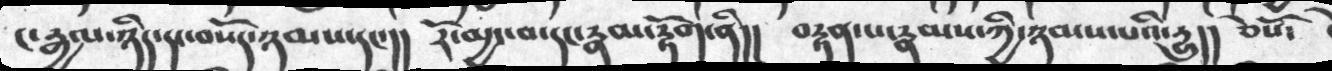ང་རྒྱལ་ཉིད་དང་བསོད་ཉམས་དང་།།    རོ་མྱང་བ་དང་རྣམ་རྟོག་ནི།།   བརྟན་པ་རྣམས་ཀྱི་ཉམས་པའི་རྱུ།།  ཅེསོ་
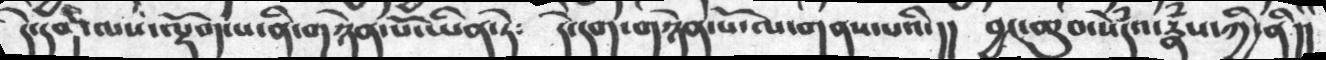དེ་དག་ལས་ལྡོག་པ་ནི་གཉེན་པོ་ཡིན་ཏེ༴      དེ་དག་གཉེན་པོ་ལ་གནས་པའི་།།   བྱང་ཆུབ་སེདྃའ་རྣཾས་ཀྱི་ནི།།
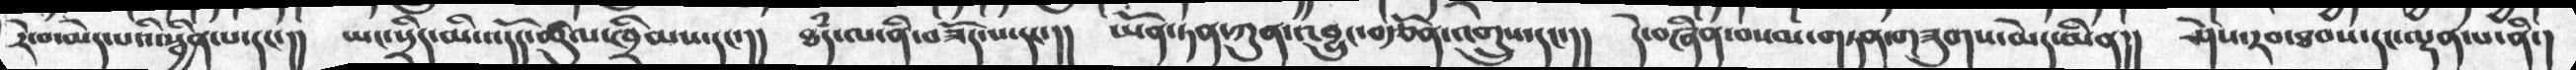རེ་བ་མེད་པའི་སྦྱིན་པ་དང་།། ཡང་སྲིད་མི་འདོད་ཚུལ་ཁྲིམས་དང་།། ཐཾད་ལ་ནི་བཟོད་པ་དང་།། ཡོན་ཏན་ཀུན་འབྱུང་བརྩོན་འགྲུས་དང་།། དེ་བཞིན་བསམ་གཏན་གཟུགས་མེད་མིན།། ཤེས་རབ་ཐབས་དང་ལྡན་པ་ནི་།
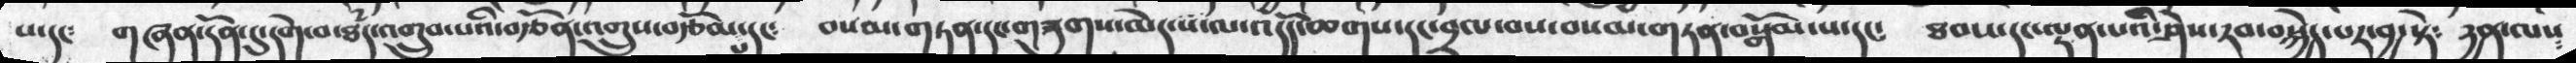པ་དང༴  གཞན་དོན་དུ་དགེ་བ་ཐཾད་འགྲུབ་པའི་བརྩོན་འགྲུས་བརྩོམ་པ་དང     བསམ་གཏན་དང་གཟུགས་མེད་ས་ལ་འདོད་ཆགས་དང་བྲལ་བས་བསམ་གཏན་བསྒོམ་པ་དང༴   ཐབས་དང་ལྡན་པའི་ཤེས་རབ་བསྐྱེད་པར་བྱ་སྟེ༴  རྱན་ལས༴
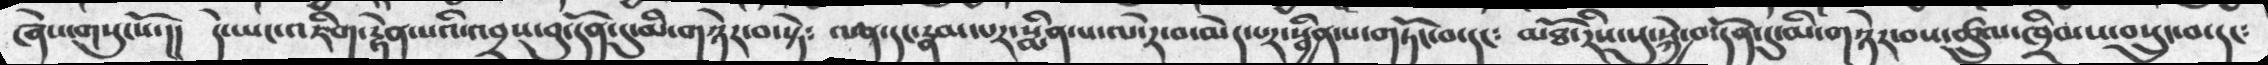ཞེས་གསུངསོ་།། དེ་ཡང་འཇིག་རྟེན་པའི་འབྲས་་བུ་དོན་དུ་མི་གཉེར་བ་སྟེ༴ ལན་དང་རྣམ་པར་སྨིན་པ་ལ་རེ་བ་མེད་པར་སྦྱིན་པ་གཏོང་བ་དང༴ མཐོ་རིས་སུ་སྐྱེ་བ་དོན་དུ་མི་གཉེར་བས་ཚུལ་ཁྲིམས་བསྲུང་བ་དང༴
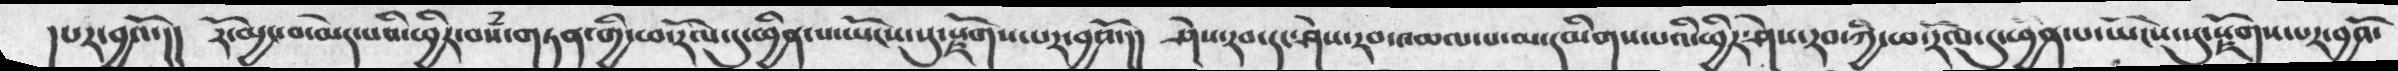།པར་བྱའོ་།།   རོ་མྱང་བ་མེད་པའི་ཕྱིར་བསྃ་གཏན་གྱི་ཕ་རོལ་དུ་ཕྱིན་པ་ཡོངས་སུ་སྗོགས་པར་བྱའོ།།  ཤེས་རབ་དང་ཤེས་རབ་འཆལ་པ་མ་དམིགས་པའི་ཕྱིར་ཤེས་རབ་ཀྱི་ཕ་རོལ་དུ་ཕྱིན་པ་ཡོངས་སུ་སྗོགས་པར་བྱའོ་
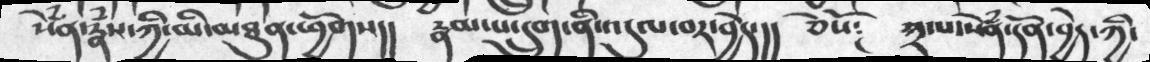སེཾས་རྣཾས་ཀྱི་མི་མཐུན་ཕྱོགས།། རྣམ་པ་དྲུག་ནི་འདུལ་བར་བྱེད་།། ཅེསོ༴ ༣་པ་སེཾན་དོན་བྱེད་ཀྱི་
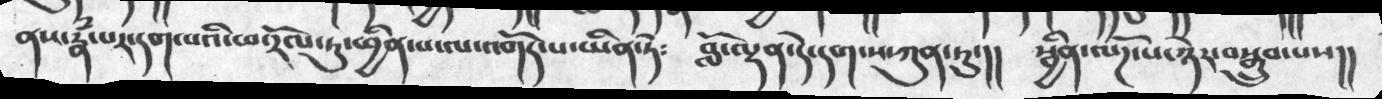ནས་རྣཾ་པར་དག་པའི་ཕ་རོལ་ཏུ་ཕྱིན་པ་ལ་འགོད་པ་ཡིན་ཏེ༴  བློ་ལྡན་དེ་དག་ས་ཀུན་ཏུ་།།  སྦྱིན་ལོཌ་པ་ཉེར་བསྒྲུབ་པས།།
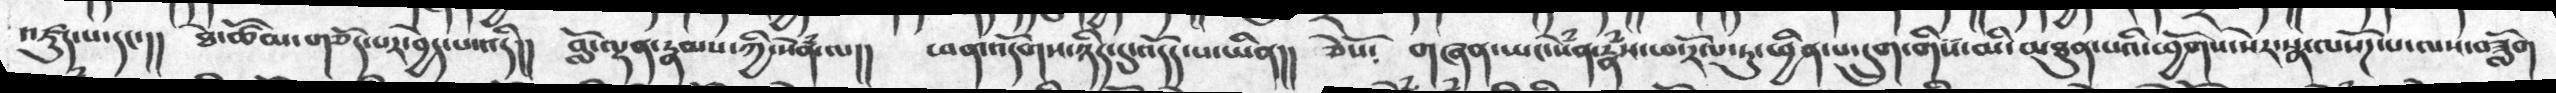འཛུད་པ་དང་།། ཐེ་ཚོམ་གཅོད་པར་བྱེད་པ་འདི།། བློ་ལྡན་རྣམས་ཀྱི་སེཾན་ལ།། ཕན་འདོགས་ཉིད་དུ་འདོད་པ་ཡིན།། ཅེསོ༴ གཞན་ཡང་སེཾན་རྣཾས་ཕ་རོལ་ཏུ་ཕྱིན་པ་དྲུག་གིས་མི་མཐུན་པའི་ཕྱོགས་སེར་སྣ་ལསོཌ་པ་ལས་བཟློག
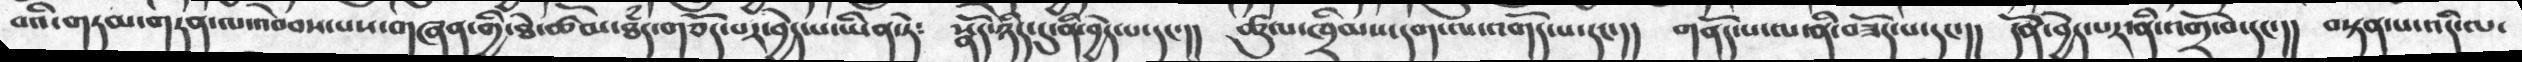བའི་གཏམ་གཏན་ལ་འབེབས་པས་གཞན་གྱི་ཐེ་ཚོམ་ཐཾད་གཅོད་པར་བྱེད་པ་ཡིན་ཏེ༴  སྣོད་ཉིད་དུ་ནི་བྱེད་པ་དང་།།  ཚུལ་ཁྲིམས་དག་ལ་འགོད་པ་དང་།།  གནོད་པ་ལ་ནི་བཟོད་པ་དང་།།  དོན་བྱེད་པར་ནི་འགྲོ་བ་དང་།།  བསྟན་པ་འདི་ལ་
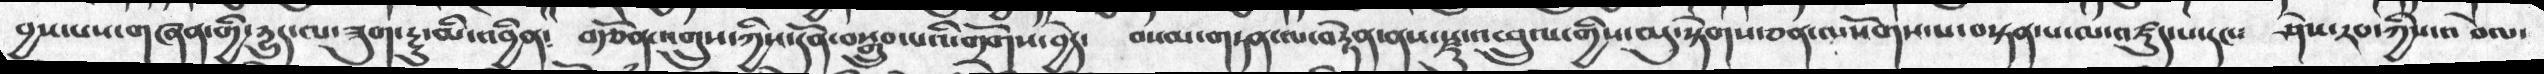བྱས་པས་གཞན་གྱི་རྱུད་ལ་ཟུག་རྔུ་མི་འབྱིན༴ བརྩོན་འགྲུས་ཀྱིས་དོན་བསྒྲུབ་པའི་གྲོགས་བྱེད་ བསམ་གཏན་ལ་བརྟེན་ནས་སྫུ་འཕྲུལ་གྱིས་མུ་སྟེགས་ཅན་ལསོགས་པ་བསྟན་པ་ལ་འཛུད་པ་དང༴ ཤེས་རབ་ཀྱིས་འ བེལ་
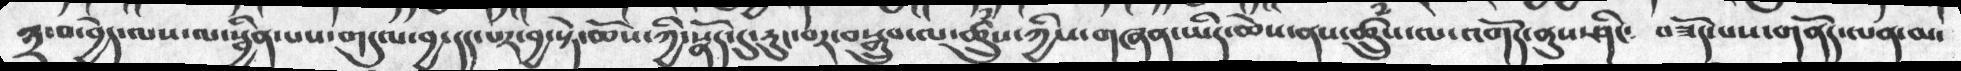༣་བ་བྱེད་ལས་ལ་སྦྱིན་པས་གདུལ་བྱ་དད་པར་བྱ་སྟེ་ཆོས་ཀྱི་སྣོད་དུ་རུང་བར་བསྒྲུབ་ལ་ཚྲུཾས་ཀྱིས་གཞན་ཡིད་ཆེས་ནས་ཚྲུཾས་ལ་འགོད་ནུས་ཤིང༴ བཟོད་པས་གནོད་ལན་མ་
